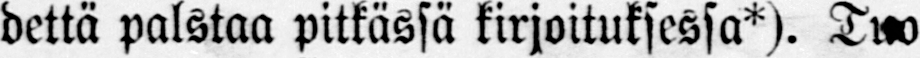dettä palstaa pitkässä kirjoituksessa*). Tuo
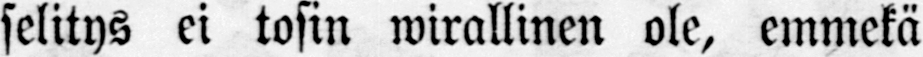selitys ei tosin wirallinen ole, emmekä
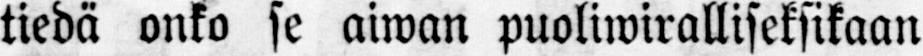tiedä onko se aiwan puoliwiralliseksikaan
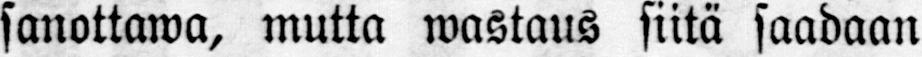sanottawa, mutta wastaus siitä saadaan
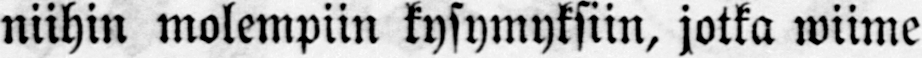niihin molempiin kysymyksiin, jotka wiime
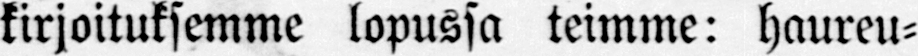kirjoituksemme lopussa teimme: haureu-
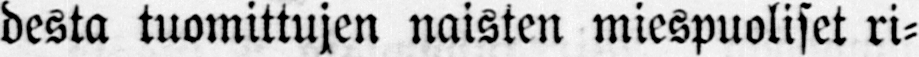desta tuomittujen naisten miespuoliset ri-
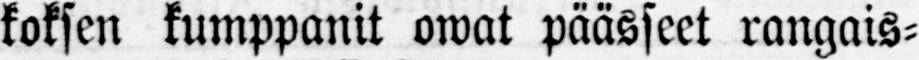koksen kumppanit owat päässeet rangais-
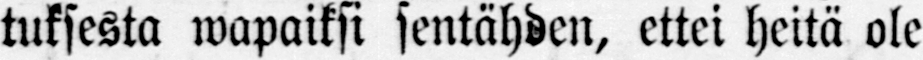tuksesta wapaiksi sentähden, ettei heitä ole
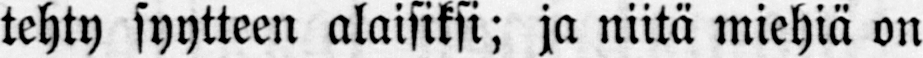tehty syytteen alaisiksi; ja niitä miehiä on
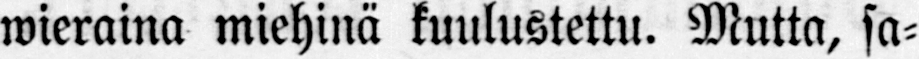wieraina miehinä kuulustettu. Mutta, sa-
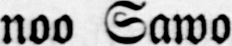noo Sawo
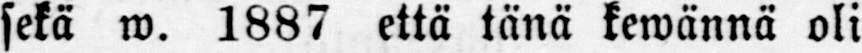sekä w. 1887 että tänä kewännä oli
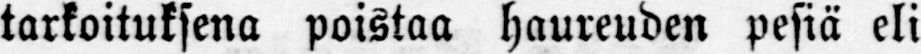tarkoituksena poistaa haureuden pesiä eli
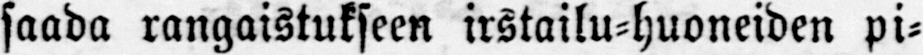saada rangaistukseen irstailu-huoneiden pi-
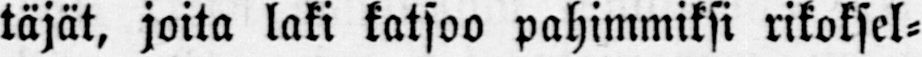täjät, joita laki katsoo pahimmiksi rikoksel-
